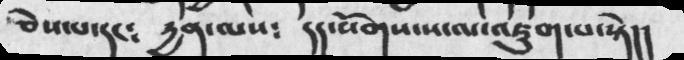ཅེས་པ་དང༴  དྱན་ལས༴  དད་སོགས་ས་ལ་འཇུག་པ་སྟེ།།
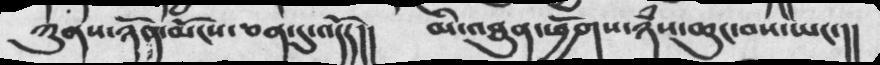ཀུནས་ཉོན་མོངས་ཅན་དུ་འདོད།།   མི་འཐུན་ཕྱོགས་ཉཾས་ཆུང་བས་ཡང་།།
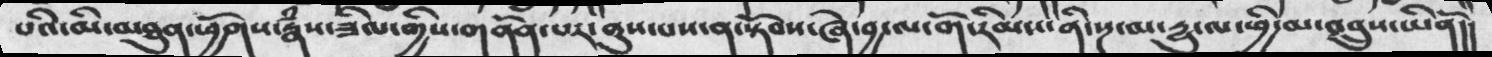པའི་མི་མཐུན་ཕྱོགས་རྣཾས་ཟིལ་གྱིས་གནོན་པར་ནུས་པས་ན་སྟོབས་ཞེ་བྱ་ལ་གོ་རིམས་ནི་སྔ་མ་དྱུ་ལ་ཕྱི་མ་འབྲུས་ཡིནོ།།
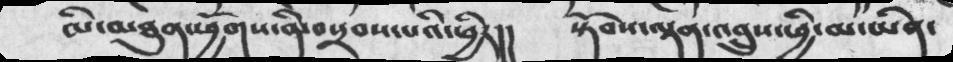མི་མཐུན་ཕྱོགས་ནི་བསྲབས་པའི་ཕྱིར།།   སྟོབས་ལྡན་འབྲུས་ཕྱི་མ་ཡིན་
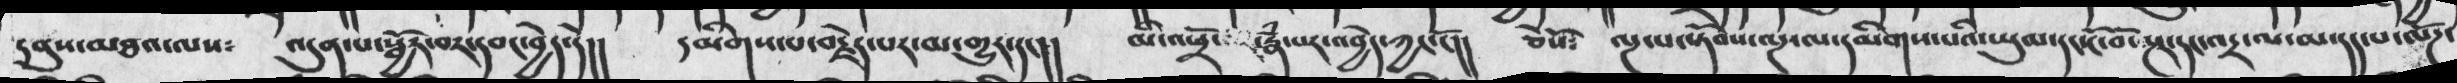དབུས་མཐའ་ལས༴  འདུན་པ་སྦྱོར་བར་དབང་བྱེད་དེ།།  དམིགས་པ་བརྗེད་པར་མ་གྱུར་དང།།  མི་འཕྲོ ་ རྣཾ་པར་འབྱེད་ཀྱང་ངོ།།  ཅེསོ༴  ལྔ་པ་སྟོབས་ལྔ་ལ་དམིགས་པའི་ཡུལ་དང་ངོ་བོ་སྔར་དང་འདྲ་ལ་མ་དད་པ་ལོཌ་
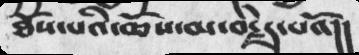ཐོས་པའི་ཆོས་མ་བརྗེད་པའོ།།
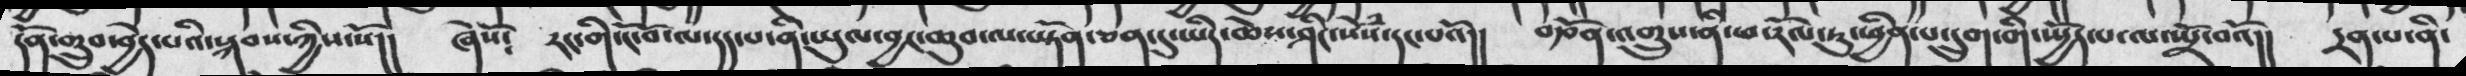དོན་གྲུབ་བྱེད་པའི་སྐབས་ཀྱིས་སོ།།   ཞེསོ༴   རང་གི་ངོ་བོ་ལ་དད་པ་ནི་ཡུལ་བྱང་ཆུབ་ལ་ཡྟོན་ཅན་དུ་ཡིད་ཆེས་ཤིང་སེཾས་དང་པའོ།།   བརྩོན་འགྲུས་ནི་ཕ་རོལ་ཏུ་ཕྱིན་པ་དྲུག་གི་སྤྱོད་པ་ལ་སྤྲོ་བའོ།།   དྲན་པ་ནི་
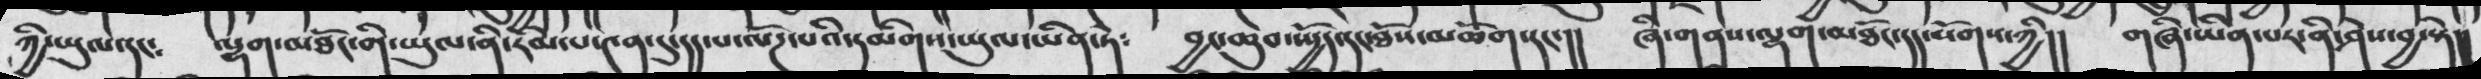ཀྱི་ཡུལ་དང༴. ལྷག་མཐོང་གི་ཡུལ་ནི་རིམ་པ་༤ན་དུ་དད་པ་ལོཌ་པའི་དམིགས་ཡུལ་ཡིན་ཏེ༴  བྱང་ཆུབ་སྤྱོད་དང་ཐོས་མཆོག་དང་།།  ཞི་གནས་ལྷག་མཐོང་དད་སོགས་ཀྱི།།  གཞི་ཡིན་པར་ནི་ཤེས་བྱ་སྟེ།།
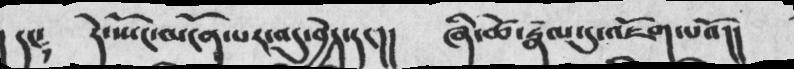དང༴   དེ་སྤོང་མངོན་པར་འདུ་བྱེད་དང།།   ཞི་ཚེ་རྣལ་དུ་འཇོག་པའོ།།
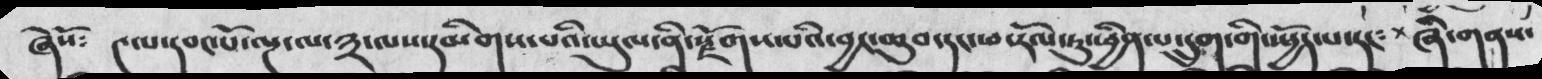ཞེསོ༴   ༤་པ་དབང་པོ་ལྔ་ལ་༣་ལས་དམིགས་པའི་ཡུལ་ནི་རྫོགས་པའི་བྱང་ཆུབ་དང་ཕ་རོལ་ཏུ་ཕྱིན་པ་དྲུག་གི་སྤྱོད་པ་དང༴ + ཞི་གནས་
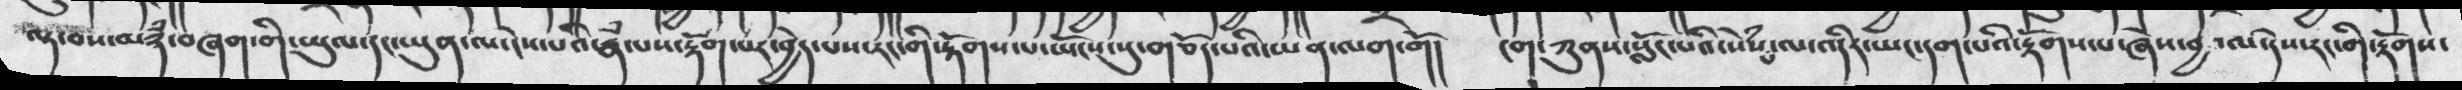ལྟ་བས་མཉཾ་བཞག་གི་ཡུལ་དང་ཡུན་ལ་ངེས་པའི་རྣཾ་པས་རྣཾ་པས་རྟོག་པར་བྱེད་པས་རང་གི་རྟོགས་པ་ཡོངས་སུ་གཅོད་པའི་ཡན་ལག་གོ།  ངག་ཀུནས་སློང་པའི་སེཾས་པ་ལ་འདིར་ཡང་དག་པའི་རྟོགས་པ་ཞེས་བྱ་བ་དེས་རང་གི་རྟོགས་
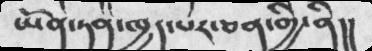ཡོན་ཏན་ཁྱད་པར་ཅན་གྱི་ནི།།
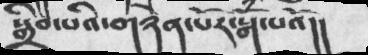སྒྲིབ་པའི་གཉེན་པོར་སྒོཾ་པའོ།།
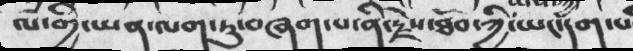ལཾ་གྱི་ཡན་ལག་ཏུ་བཞག་པ་ནི་རྗེས་ཐོབ་ཀྱི་ཡང་དག་པ
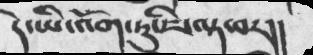དེ་ཡི་འོག་ཏུ་ཇི་ལྟ་བར།།
